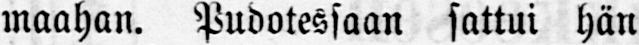maahan. Pudotessaan sattui hän
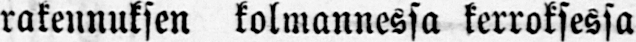rakennuksen kolmannessa kerroksessa
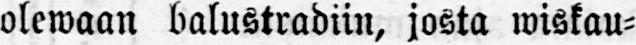olewaan balustradiin, josta wiskau-
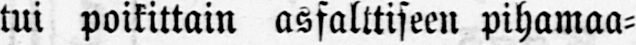tui poikittain asfalttiseen pihamaa-
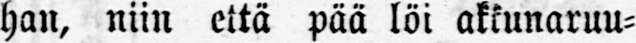han, niin että pää löi akkunaruu-
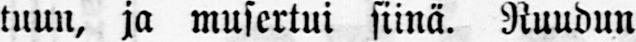tuun, ja musertui siinä. Ruudun
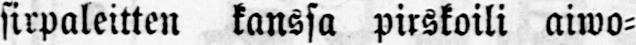sirpaleitten kanssa pirskoili aiwo-
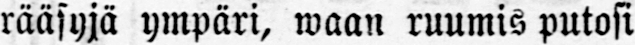rääsyjä ympäri, waan ruumis putosi
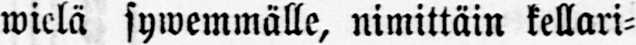wielä sywemmälle, nimittäin kellari-
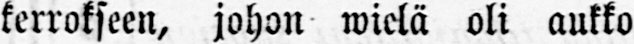kerrokseen, johon wielä oli aukko
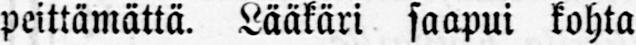peittämättä. Lääkäri saapui kohta
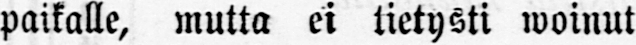paikalle, mutta ei tietysti woinut
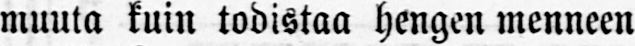muuta kuin todistaa hengen menneen
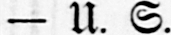— U. S.
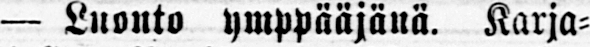— Luonto ymppääjänä. Karja-
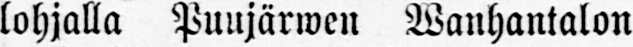lohjalla Puujärwen Wanhantalon
